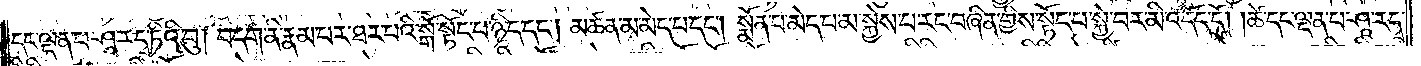དང་ལྡན་པ་ཤཱ་ར་དྭ་ཏིའི་བུ། བདག་ནི་རྣམ་པར་ཐར་པའི་སྒོ་སྟོང་པ་ཉིད་དང༌། མཚན་མ་མེད་པ་དང༌། སྨོན་པ་མེད་པ་མ་སྐྱེས་པ་རང་བཞིན་གྱིས་སྟོང་པ་སྐྱེ་བར་མི་འདོད་དོ། །ཚེ་དང་ལྡན་པ་ཤཱ་ར་དྭ་
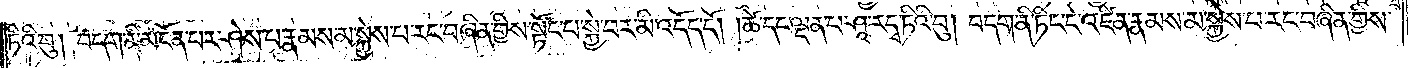ཏིའི་བུ། བདག་ནི་མངོན་པར་ཤེས་པ་རྣམས་མ་སྐྱེས་པ་རང་བཞིན་གྱིས་སྟོང་པ་སྐྱེ་བར་མི་འདོད་དོ། །ཚེ་དང་ལྡན་པ་ཤཱ་ར་དྭ་ཏིའི་བུ། བདག་ནི་ཏིང་ངེ་འཛིན་རྣམས་མ་སྐྱེས་པ་རང་བཞིན་གྱིས་
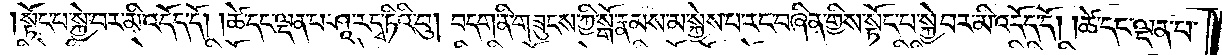སྟོང་པ་སྐྱེ་བར་མི་འདོད་དོ། །ཚེ་དང་ལྡན་པ་ཤཱ་ར་དྭ་ཏིའི་བུ། བདག་ནི་གཟུངས་ཀྱི་སྒོ་རྣམས་མ་སྐྱེས་པ་རང་བཞིན་གྱིས་སྟོང་པ་སྐྱེ་བར་མི་འདོད་དོ། །ཚེ་དང་ལྡན་
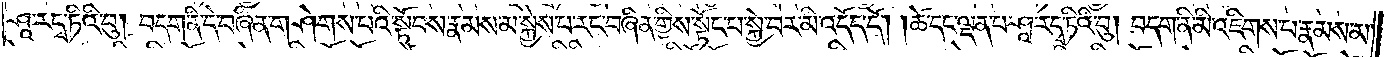པ་ཤཱ་ར་དྭ་ཏིའི་བུ། བདག་ནི་དེ་བཞིན་གཤེགས་པའི་སྟོབས་རྣམས་མ་སྐྱེས་པ་རང་བཞིན་གྱིས་སྟོང་པ་སྐྱེ་བར་མི་འདོད་དོ། །ཚེ་དང་ལྡན་པ་ཤཱ་ར་དྭ་ཏིའི་བུ། བདག་ནི་མི་འཇིགས་པ་རྣམས་མ་
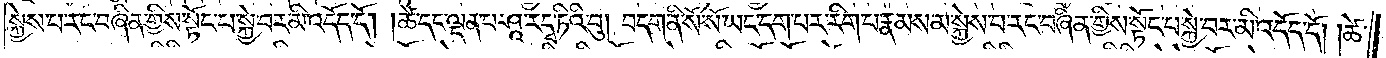སྐྱེས་པ་རང་བཞིན་གྱིས་སྟོང་པ་སྐྱེ་བར་མི་འདོད་དོ། །ཚེ་དང་ལྡན་པ་ཤཱ་ར་དྭ་ཏིའི་བུ། བདག་ནི་སོ་སོ་ཡང་དག་པར་རིག་པ་རྣམས་མ་སྐྱེས་པ་རང་བཞིན་གྱིས་སྟོང་པ་སྐྱེ་བར་མི་འདོད་དོ། །ཚེ་
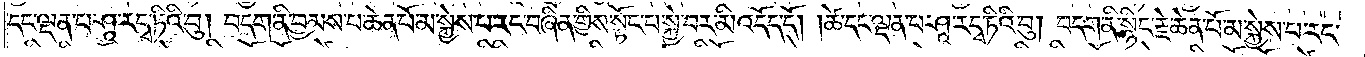དང་ལྡན་པ་ཤཱ་ར་དྭ་ཏིའི་བུ། བདག་ནི་བྱམས་པ་ཆེན་པོ་མ་སྐྱེས་པ་རང་བཞིན་གྱིས་སྟོང་པ་སྐྱེ་བར་མི་འདོད་དོ། །ཚེ་དང་ལྡན་པ་ཤཱ་ར་དྭ་ཏིའི་བུ། བདག་ནི་སྙིང་རྗེ་ཆེན་པོ་མ་སྐྱེས་པ་རང་
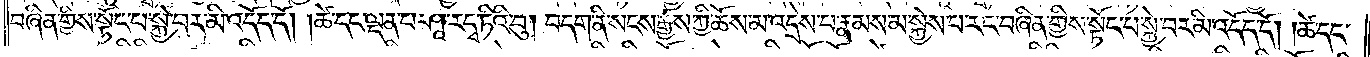བཞིན་གྱིས་སྟོང་པ་སྐྱེ་བར་མི་འདོད་དོ། །ཚེ་དང་ལྡན་པ་ཤཱ་ར་དྭ་ཏིའི་བུ། བདག་ནི་སངས་རྒྱས་ཀྱི་ཆོས་མ་འདྲེས་པ་རྣམས་མ་སྐྱེས་པ་རང་བཞིན་གྱིས་སྟོང་པ་སྐྱེ་བར་མི་འདོད་དོ། །ཚེ་དང་
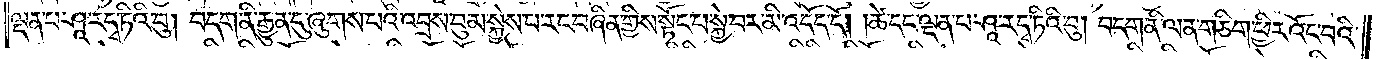ལྡན་པ་ཤཱ་ར་དྭ་ཏིའི་བུ། བདག་ནི་རྒྱུན་དུ་ཞུགས་པའི་འབྲས་བུ་མ་སྐྱེས་པ་རང་བཞིན་གྱིས་སྟོང་པ་སྐྱེ་བར་མི་འདོད་དོ། །ཚེ་དང་ལྡན་པ་ཤཱ་ར་དྭ་ཏིའི་བུ། བདག་ནི་ལན་ཅིག་ཕྱིར་འོང་བའི་
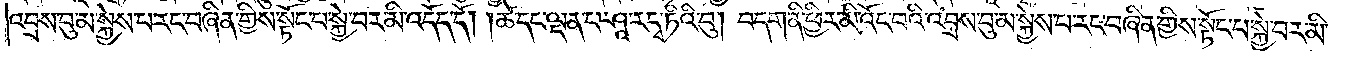འབྲས་བུ་མ་སྐྱེས་པ་རང་བཞིན་གྱིས་སྟོང་པ་སྐྱེ་བར་མི་འདོད་དོ། །ཚེ་དང་ལྡན་པ་ཤཱ་ར་དྭ་ཏིའི་བུ། བདག་ནི་ཕྱིར་མི་འོང་བའི་འབྲས་བུ་མ་སྐྱེས་པ་རང་བཞིན་གྱིས་སྟོང་པ་སྐྱེ་བར་མི་
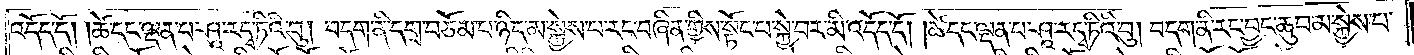འདོད་དོ། །ཚེ་དང་ལྡན་པ་ཤཱ་ར་དྭ་ཏིའི་བུ། བདག་ནི་དགྲ་བཅོམ་པ་ཉིད་མ་སྐྱེས་པ་རང་བཞིན་གྱིས་སྟོང་པ་སྐྱེ་བར་མི་འདོད་དོ། །ཚེ་དང་ལྡན་པ་ཤཱ་ར་དྭ་ཏིའི་བུ། བདག་ནི་རང་བྱང་ཆུབ་མ་སྐྱེས་པ་
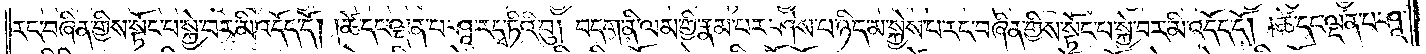རང་བཞིན་གྱིས་སྟོང་པ་སྐྱེ་བར་མི་འདོད་དོ། །ཚེ་དང་ལྡན་པ་ཤཱ་ར་དྭ་ཏིའི་བུ། བདག་ནི་ལམ་གྱི་རྣམ་པ་ཤེས་པ་ཉིད་མ་སྐྱེས་པ་རང་བཞིན་གྱིས་སྟོང་པ་སྐྱེ་བར་མི་འདོད་དོ། །ཚེ་དང་ལྡན་པ་ཤཱ་
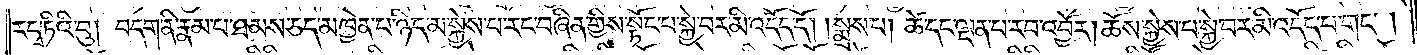ར་དྭ་ཏིའི་བུ། བདག་ནི་རྣམ་པ་ཐམས་ཅད་མཁྱེན་པ་ཉིད་མ་སྐྱེས་པ་རང་བཞིན་གྱིས་སྟོང་པ་སྐྱེ་བར་མི་འདོད་དོ། །སྨྲས་པ། ཚེ་དང་ལྡན་པ་རབ་འབྱོར། ཆོས་སྐྱེས་པ་སྐྱེ་བར་མི་འདོད་པ་གང༌།
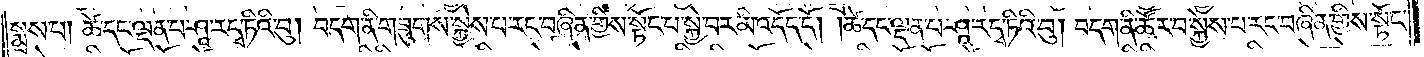སྨྲས་པ། ཚེ་དང་ལྡན་པ་ཤཱ་ར་དྭ་ཏིའི་བུ། བདག་ནི་གཟུགས་སྐྱེས་པ་རང་བཞིན་གྱིས་སྟོང་པ་སྐྱེ་བར་མི་འདོད་དོ། །ཚེ་དང་ལྡན་པ་ཤཱ་ར་དྭ་ཏིའི་བུ། བདག་ནི་ཚོར་བ་སྐྱེས་པ་རང་བཞིན་གྱིས་སྟོང་
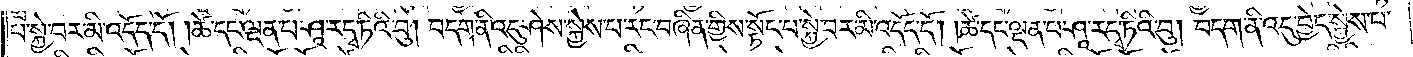པ་སྐྱེ་བར་མི་འདོད་དོ། །ཚེ་དང་ལྡན་པ་ཤཱ་ར་དྭ་ཏིའི་བུ། བདག་ནི་འདུ་ཤེས་སྐྱེས་པ་རང་བཞིན་གྱིས་སྟོང་པ་སྐྱེ་བར་མི་འདོད་དོ། །ཚེ་དང་ལྡན་པ་ཤཱ་ར་དྭ་ཏིའི་བུ། བདག་ནི་འདུ་བྱེད་སྐྱེས་པ་
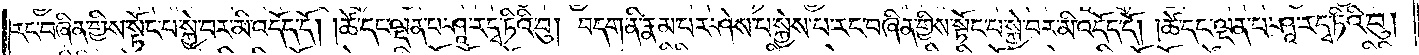རང་བཞིན་གྱིས་སྟོང་པ་སྐྱེ་བར་མི་འདོད་དོ། །ཚེ་དང་ལྡན་པ་ཤཱ་ར་དྭ་ཏིའི་བུ། བདག་ནི་རྣམ་པར་ཤེས་པ་སྐྱེས་པ་རང་བཞིན་གྱིས་སྟོང་པ་སྐྱེ་བར་མི་འདོད་དོ། །ཚེ་དང་ལྡན་པ་ཤཱ་ར་དྭ་ཏིའི་བུ།
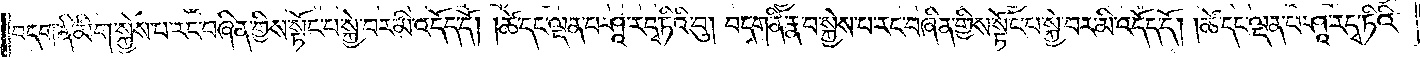བདག་ནི་མིག་སྐྱེས་པ་རང་བཞིན་གྱིས་སྟོང་པ་སྐྱེ་བར་མི་འདོད་དོ། །ཚེ་དང་ལྡན་པ་ཤཱ་ར་དྭ་ཏིའི་བུ། བདག་ནི་རྣ་བ་སྐྱེས་པ་རང་བཞིན་གྱིས་སྟོང་པ་སྐྱེ་བར་མི་འདོད་དོ། །ཚེ་དང་ལྡན་པ་ཤཱ་ར་དྭ་ཏིའི་
